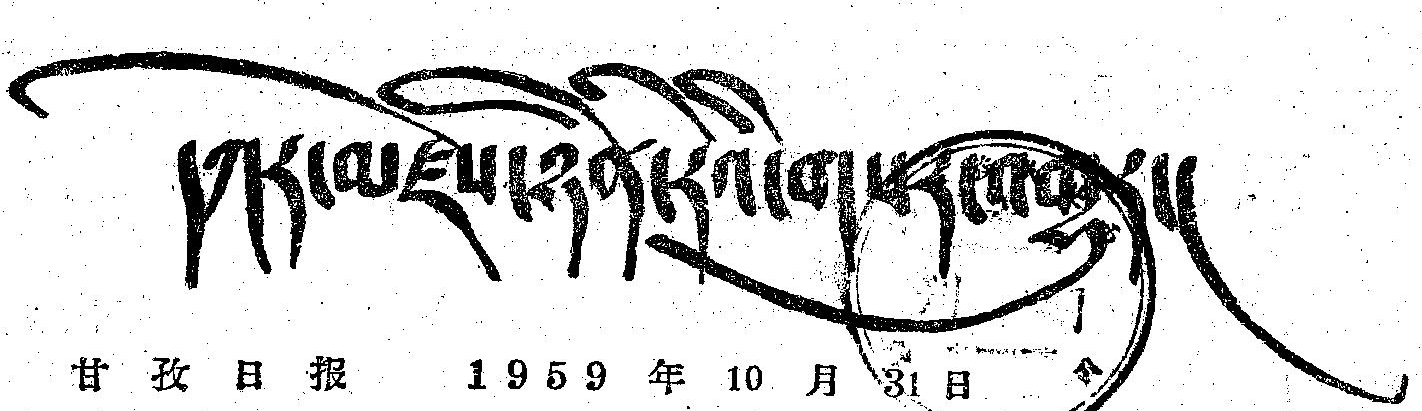དཀར་མཛེས་ཉིན་རེའི་གསར་འགྱུར་།
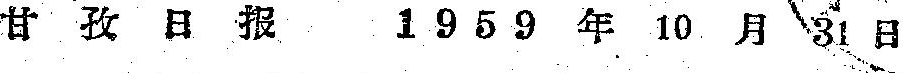甘 孜 日 报 1 9 5 9 年 10 月 31 日
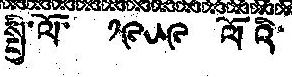སྤྱི་ལོ་ ༡༩༥༩ ལོའི་
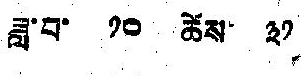ཟླ་བ་ ༡༠ ཚེས ༣༡
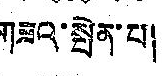གཟའ་སྤེན་པ།
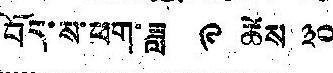བོད་ས་ཕག་ཟླ ༩ ཚེས ༣༠
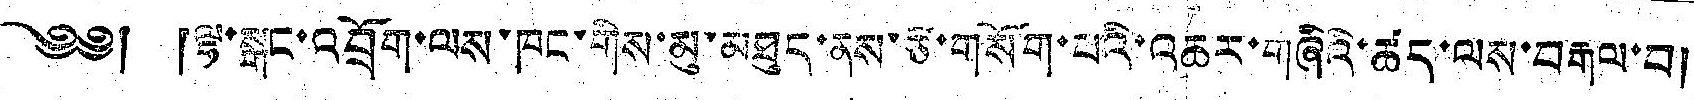༄༅། །ལྷ་སྒང་འབྲོག་ལས་ཁང་གིས་མུ་མཐུན་ནས་རྩ་གསོག་པའི་འཆར་གཞིའི་ཚད་ལས་བརྒལ་བ།
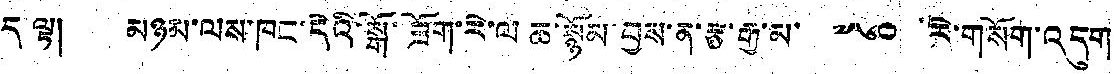ད་ལྟ། མཉམ་ལས་ཁང་དེའི་སྒོ་ཟོག་རེ་ལ ཆ་སྙོམ་བྱས་ན་རྩ་རྒྱ་མ་ ༧༦༠ རེ་གསོག་འདུག
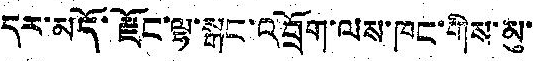དར་མདོ་རྫོང་ལྷ་སྒང་འབྲོག་ལས་ཁང་གིས་མུ་
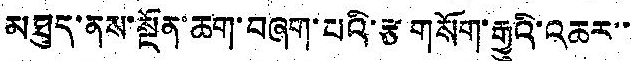མཐུན་ནས་སྔོན་ཆག་བཞག་པའི་རྩ གསོག་རྒྱུའི་འཆར་་
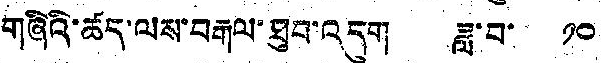གཞིའི་ཚད་ལས་བརྒལ་ཐུབ་འདུག ཟླ་བ་ ༡༠
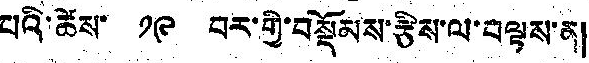པའི་ཚེས་ ༡༩ བར་གྱི་བསྡོམས་རྩིས་ལ་བལྟས་ན།
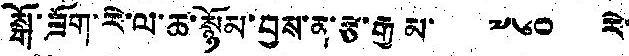སྒོ་ཟོག་རེ་ལ་ཆ་སྙོམ་བྱས་ན་རྩ་རྒྱ མ་ ༧༦༠ རེ་
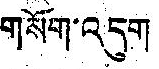གསོག་འདུག
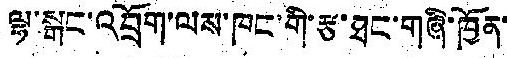ལྷ་སྒང་འབྲོག་ལས་ཁང་གི་རྩ་ཐང་གཞི་ཁྱོན་
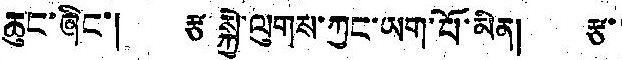ཆུང་ཞིང་། རྩ སྐྱེ་ལུགས་ཀྱང་ཡག་པོ་མིན། རྩ་
